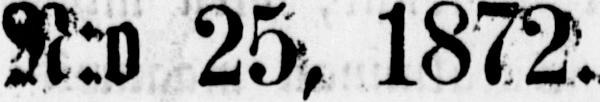N:o 25, 1872.
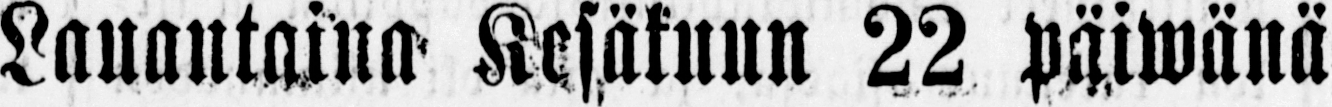Lauantaina Kesäkuun 22 päiwänä
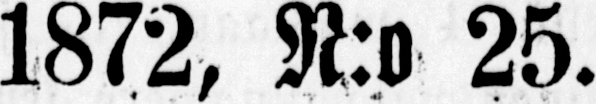1872, N:o 25.
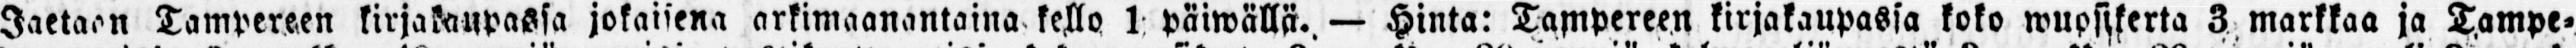Jaetaan Tampereen kirjakaupassa jokaisena arkimaanantaina kello 1 päiwällä. — Hinta: Tampereen kirjakaupassa koko wuosikerta 3 markkaa ja Tampe-
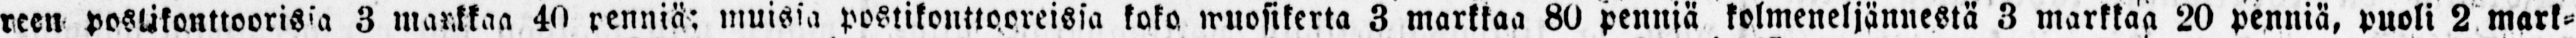reen postikonttoorissa 3 markkaa 40 penniä: muissa postikonttooreisia koko wuosikerta 3 markkaa 80 penniä kolmeneljännestä 3 markkaa 20 penniä, puoli 2 mark-
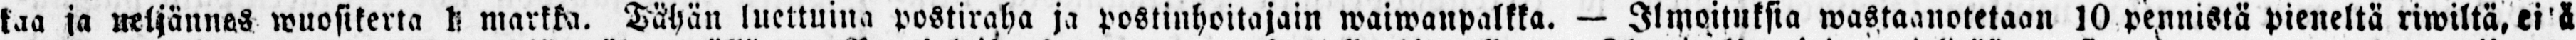kaa ja neljännes wuosikerta 1 markka. Tähän luettuina postiraha ja postinhoitajain waiwanpalkka. — Ilmoituksia wastaanotetaan 10 pennistä pieneltä riwiltä , ei &
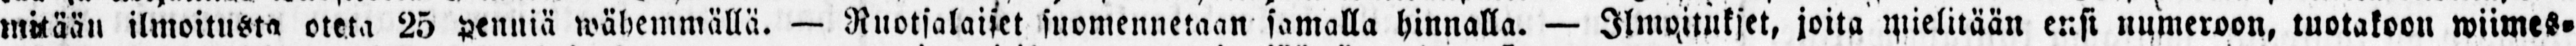mitään ilmoitusta oteta 25 penniä wähemmällä. — Ruotsalaiset suomennetaan samalla hinnalla. — Ilmoitukset, joita mielitään ensi numeroon, tuotakoon wiimes-
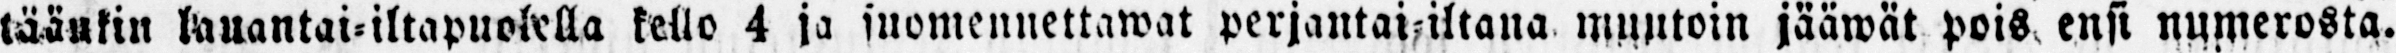täänkin lauantai-iltapuolella kello 4 ja suomennettawat perjantai-iltana muutoin jääwät pois ensi numerosta.
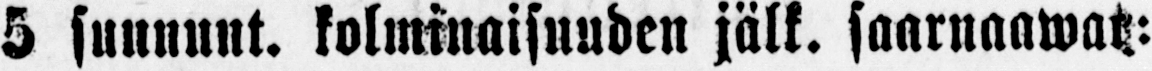5 sunnunt. kolminaisuuden jälk. saarnaawaat:
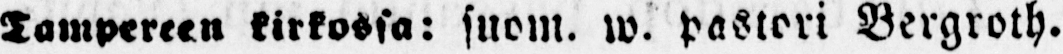Tampereen kirkossa: suom. w. pastori Bergroth.
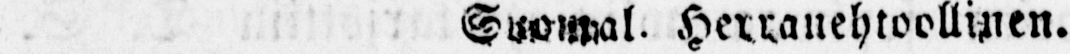Suomal. Herranehtoollinen.
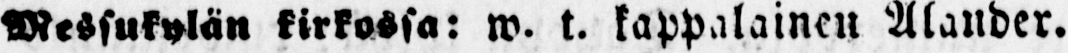Messukylän kirkossa: w. t. kappalainen Alander.
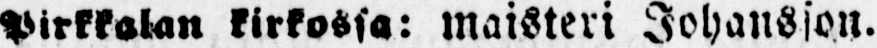Pirkkalan kirkossa: maisteri Johansson.
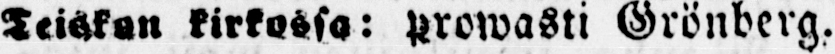Teiskan kirkossa: prowasti Grönberg.
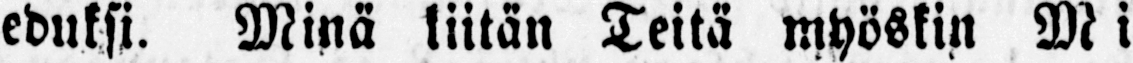eduksi. Minä kiitän Teitä myöskin Mi-
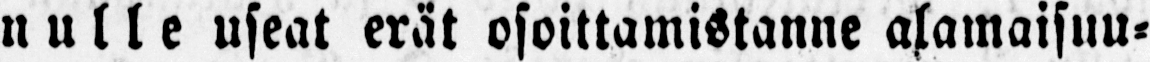nulle useat erät osoittamistanne alamaisuu-
